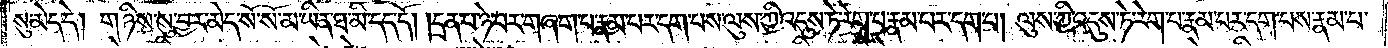སུ་མེད་དེ། གཉིས་སུ་བྱར་མེད་སོ་སོ་མ་ཡིན་ཐ་མི་དད་དོ། །དྲན་པ་ཉེ་བར་གཞག་པ་རྣམ་པར་དག་པས་ལུས་ཀྱི་འདུས་ཏེ་རེག་པ་རྣམ་པར་དག་པ། ལུས་ཀྱི་འདུས་ཏེ་རེག་པ་རྣམ་པར་དག་པས་རྣམ་པ་
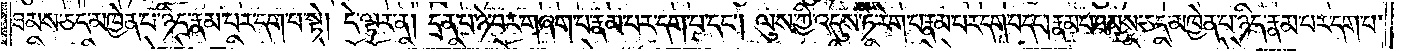ཐམས་ཅད་མཁྱེན་པ་ཉིད་རྣམ་པར་དག་པ་སྟེ། དེ་ལྟར་ན། དྲན་པ་ཉེ་བར་གཞག་པ་རྣམ་པར་དག་པ་དང༌། ལུས་ཀྱི་འདུས་ཏེ་རེག་པ་རྣམ་པར་དག་པ་དང༌། རྣམ་པ་ཐམས་ཅད་མཁྱེན་པ་ཉིད་རྣམ་པར་དག་པ་
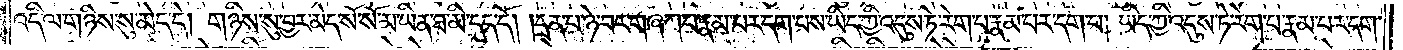འདི་ལ་གཉིས་སུ་མེད་དེ། གཉིས་སུ་བྱར་མེད་སོ་སོ་མ་ཡིན་ཐ་མི་དད་དོ། །དྲན་པ་ཉེ་བར་གཞག་པ་རྣམ་པར་དག་པས་ཡིད་ཀྱི་འདུས་ཏེ་རེག་པ་རྣམ་པར་དག་པ། ཡིད་ཀྱི་འདུས་ཏེ་རེག་པ་རྣམ་པར་དག་
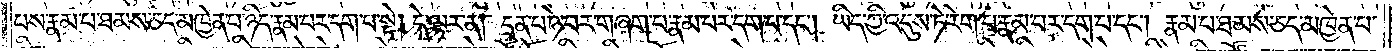པས་རྣམ་པ་ཐམས་ཅད་མཁྱེན་པ་ཉིད་རྣམ་པར་དག་པ་སྟེ། དེ་ལྟར་ན། དྲན་པ་ཉེ་བར་གཞག་པ་རྣམ་པར་དག་པ་དང༌། ཡིད་ཀྱི་འདུས་ཏེ་རེག་པ་རྣམ་པར་དག་པ་དང༌། རྣམ་པ་ཐམས་ཅད་མཁྱེན་པ་
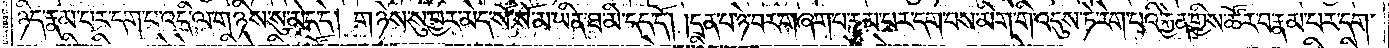ཉིད་རྣམ་པར་དག་པ་འདི་ལ་གཉིས་སུ་མེད་དེ། གཉིས་སུ་བྱར་མེད་སོ་སོ་མ་ཡིན་ཐ་མི་དད་དོ། །དྲན་པ་ཉེ་བར་གཞག་པ་རྣམ་པར་དག་པས་མིག་གི་འདུས་ཏེ་རེག་པའི་རྐྱེན་གྱིས་ཚོར་བ་རྣམ་པར་དག་
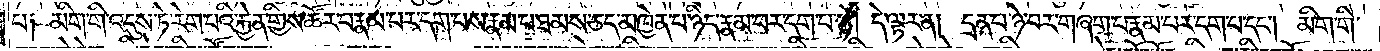པ༑ མིག་གི་འདུས་ཏེ་རེག་པའི་རྐྱེན་གྱིས་ཚོར་བ་རྣམ་པར་དག་པས་རྣམ་པ་ཐམས་ཅད་མཁྱེན་པ་ཉིད་རྣམ་པར་དག་པ་སྟེ། དེ་ལྟར་ན། དྲན་པ་ཉེ་བར་གཞག་པ་རྣམ་པར་དག་པ་དང༌། མིག་གི་
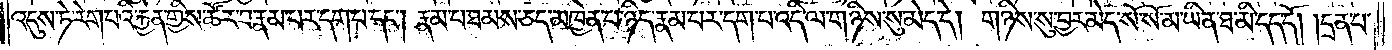འདུས་ཏེ་རེག་པའི་རྐྱེན་གྱིས་ཚོར་བ་རྣམ་པར་དག་པ་དང༌། རྣམ་པ་ཐམས་ཅད་མཁྱེན་པ་ཉིད་རྣམ་པར་དག་པ་འདི་ལ་གཉིས་སུ་མེད་དེ། གཉིས་སུ་བྱར་མེད་སོ་སོ་མ་ཡིན་ཐ་མི་དད་དོ། །དྲན་པ་
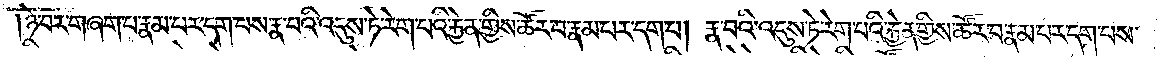ཉེ་བར་གཞག་པ་རྣམ་པར་དག་པས་རྣ་བའི་འདུས་ཏེ་རེག་པའི་རྐྱེན་གྱིས་ཚོར་བ་རྣམ་པར་དག་པ། རྣ་བའི་འདུས་ཏེ་རེག་པའི་རྐྱེན་གྱིས་ཚོར་བ་རྣམ་པར་དག་པས་
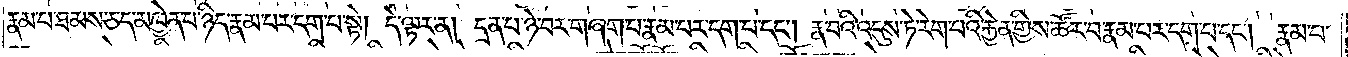རྣམ་པ་ཐམས་ཅད་མཁྱེན་པ་ཉིད་རྣམ་པར་དག་པ་སྟེ། དེ་ལྟར་ན། དྲན་པ་ཉེ་བར་གཞག་པ་རྣམ་པར་དག་པ་དང༌། རྣ་བའི་འདུས་ཏེ་རེག་པའི་རྐྱེན་གྱིས་ཚོར་བ་རྣམ་པར་དག་པ་དང༌། རྣམ་པ་
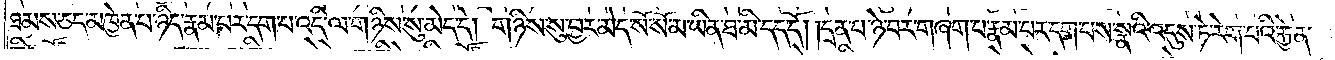ཐམས་ཅད་མཁྱེན་པ་ཉིད་རྣམ་པར་དག་པ་འདི་ལ་གཉིས་སུ་མེད་དེ། གཉིས་སུ་བྱར་མེད་སོ་སོ་མ་ཡིན་ཐ་མི་དད་དོ། དྲན་པ་ཉེ་བར་གཞག་པ་རྣམ་པར་དག་པས་སྣའི་འདུས་ཏེ་རེག་པའི་རྐྱེན་
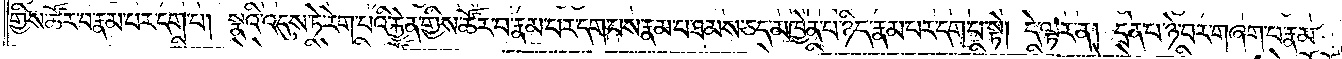གྱིས་ཚོར་བ་རྣམ་པར་དག་པ། སྣའི་འདུས་ཏེ་རེག་པའི་རྐྱེན་གྱིས་ཚོར་བ་རྣམ་པར་དག་པས་རྣམ་པ་ཐམས་ཅད་མཁྱེན་པ་ཉིད་རྣམ་པར་དག་པ་སྟེ། དེ་ལྟར་ན། དྲན་པ་ཉེ་བར་གཞག་པ་རྣམ་
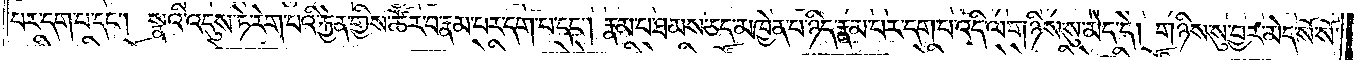པར་དག་པ་དང༌། སྣའི་འདུས་ཏེ་རེག་པའི་རྐྱེན་གྱིས་ཚོར་བ་རྣམ་པར་དག་པ་དང༌། རྣམ་པ་ཐམས་ཅད་མཁྱེན་པ་ཉིད་རྣམ་པར་དག་པ་འདི་ལ་གཉིས་སུ་མེད་དེ། གཉིས་སུ་བྱར་མེད་སོ་སོ་
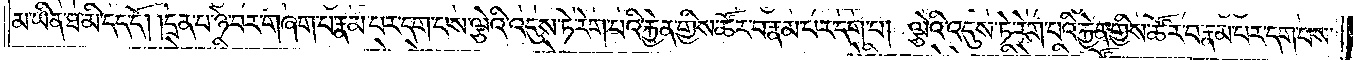མ་ཡིན་ཐ་མི་དད་དོ། །དྲན་པ་ཉེ་བར་གཞག་པ་རྣམ་པར་དག་པས་ལྕེའི་འདུས་ཏེ་རེག་པའི་རྐྱེན་གྱིས་ཚོར་བ་རྣམ་པར་དག་པ། ལྕེའི་འདུས་ཏེ་རེག་པའི་རྐྱེན་གྱིས་ཚོར་བ་རྣམ་པར་དག་པས་
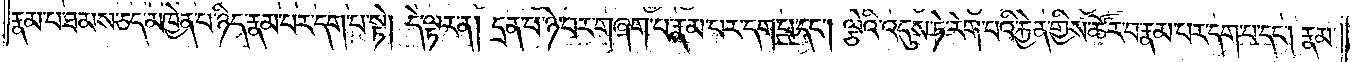རྣམ་པ་ཐམས་ཅད་མཁྱེན་པ་ཉིད་རྣམ་པར་དག་པ་སྟེ། དེ་ལྟར་ན། དྲན་པ་ཉེ་བར་གཞག་པ་རྣམ་པར་དག་པ་དང༌། ལྕེའི་འདུས་ཏེ་རེག་པའི་རྐྱེན་གྱིས་ཚོར་བ་རྣམ་པར་དག་པ་དང༌། རྣམ་
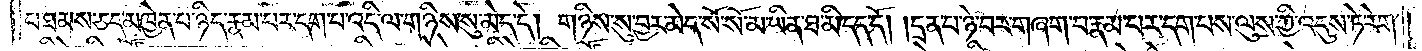པ་ཐམས་ཅད་མཁྱེན་པ་ཉིད་རྣམ་པར་དག་པ་འདི་ལ་གཉིས་སུ་མེད་དེ། གཉིས་སུ་བྱར་མེད་སོ་སོ་མ་ཡིན་ཐ་མི་དད་དོ། །དྲན་པ་ཉེ་བར་གཞག་པ་རྣམ་པར་དག་པས་ལུས་ཀྱི་འདུས་ཏེ་རེག་
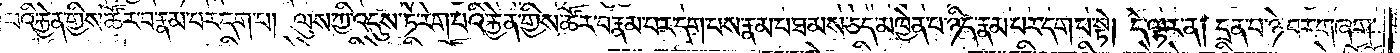པའི་རྐྱེན་གྱིས་ཚོར་བ་རྣམ་པར་དག་པ། ལུས་ཀྱི་འདུས་ཏེ་རེག་པའི་རྐྱེན་གྱིས་ཚོར་བ་རྣམ་པར་དག་པས་རྣམ་པ་ཐམས་ཅད་མཁྱེན་པ་ཉིད་རྣམ་པར་དག་པ་སྟེ། དེ་ལྟར་ན། དྲན་པ་ཉེ་བར་གཞག་
